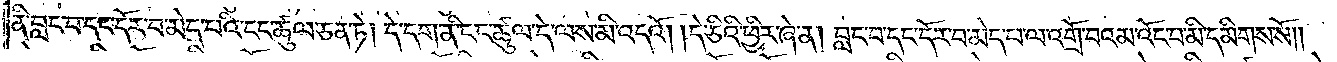ནི་བླང་བ་དང་དོར་བ་མེད་པའི་ངང་ཚུལ་ཅན་ཏེ། དེ་དག་ནི་ངང་ཚུལ་དེ་ལས་མི་འདའོ། །དེ་ཅིའི་ཕྱིར་ཞེ་ན། བླང་བ་དང་དོར་བ་མེད་པ་ལ་འགྲོ་བའམ་འོང་བ་མི་དམིགས་སོ༎
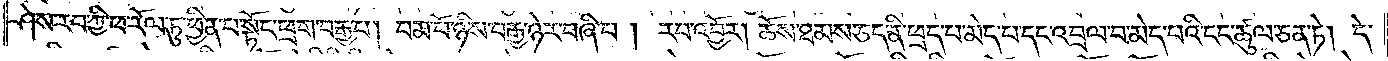ཤེས་རབ་ཀྱི་ཕ་རོལ་ཏུ་ཕྱིན་པ་སྟོང་ཕྲག་བརྒྱ་པ། །བམ་པོ་ཉིས་བརྒྱ་ཉེར་བཞི་པ། །རབ་འབྱོར། ཆོས་ཐམས་ཅད་ནི་ཕྲད་པ་མེད་པ་དང་འབྲལ་བ་མེད་པའི་ངང་ཚུལ་ཅན་ཏེ། དེ་
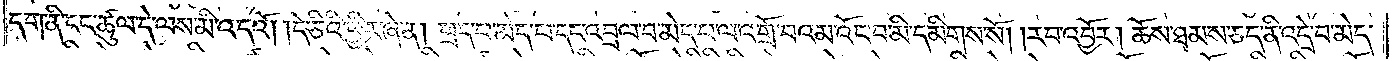དག་ནི་ངང་ཚུལ་དེ་ལས་མི་འདའོ། །དེ་ཅིའི་ཕྱིར་ཞེ་ན། ཕྲད་པ་མེད་པ་དང་འབྲལ་བ་མེད་པ་ལ་འགྲོ་བའམ་འོང་བ་མི་དམིགས་སོ། །རབ་འབྱོར། ཆོས་ཐམས་ཅད་ནི་འདྲི་བ་མེད་
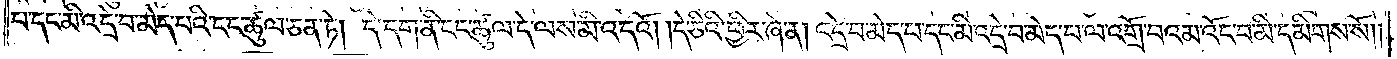པ་དང་མི་འོང་བ་མེད་པའི་ངང་ཚུལ་ཅན་ཏེ། །དེ་དག་ནི་ངང་ཚུལ་དེ་ལས་མི་འདའོ། །དེ་ཅིའི་ཕྱིར་ཞེ་ན། འདྲེ་བ་མེད་པ་དང་མི་འོང་བ་མེད་པ་ལ་འགྲོ་བའམ་འོང་བ་མི་དམིགས་སོ། །
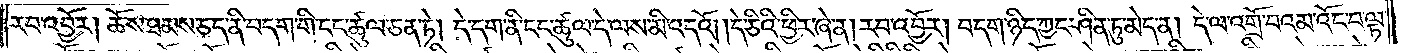རབ་འབྱོར། ཆོས་ཐམས་ཅད་ནི་བདག་གི་ངང་ཚུལ་ཅན་ཏེ། །དེ་དག་ནི་ངང་ཚུལ་དེ་ལས་མི་འདའོ། །དེ་ཅིའི་ཕྱིར་ཞེ་ན། རབ་འབྱོར། བདག་ཉིད་ཀྱང་ཤིན་ཏུ་མེད་ན། དེ་ལ་འགྲོ་བའམ་འོང་བ་ལྟ་
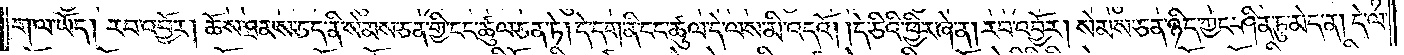ག་ལ་ཡོད། རབ་འབྱོར། ཆོས་ཐམས་ཅད་ནི་སེམས་ཅན་གྱི་ངང་ཚུལ་ཅན་ཏེ། དེ་དག་ནི་ངང་ཚུལ་དེ་ལས་མི་འདའོ། །དེ་ཅིའི་ཕྱིར་ཞེ་ན། རབ་འབྱོར། སེམས་ཅན་ཉིད་ཀྱང་ཤིན་ཏུ་མེད་ན། དེ་ལ་
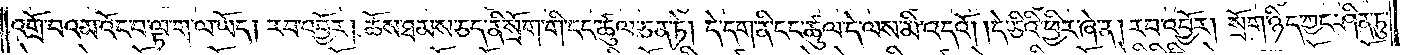འགྲོ་བ་འམ་འོང་བ་ལྟ་ག་ལ་ཡོད། རབ་འབྱོར། ཆོས་ཐམས་ཅད་ནི་སྲོག་གི་ངང་ཚུལ་ཅན་ཏེ། དེ་དག་ནི་ངང་ཚུལ་དེ་ལས་མི་འདའོ། །དེ་ཅིའི་ཕྱིར་ཞེ་ན། རབ་འབྱོར། སྲོག་ཉིད་ཀྱང་ཤིན་ཏུ་
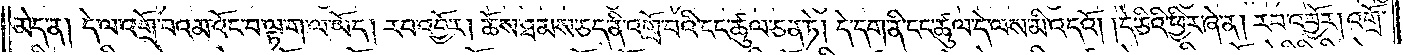མེད་ན། དེ་ལ་འགྲོ་བའམ་འོང་བ་ལྟ་ག་ལ་ཡོད། རབ་འབྱོར། ཆོས་ཐམས་ཅད་ནི་འགྲོ་བའི་ངང་ཚུལ་ཅན་ཏེ། དེ་དག་ནི་ངང་ཚུལ་དེ་ལས་མི་འདའོ། །དེ་ཅིའི་ཕྱིར་ཞེ་ན། རབ་འབྱོར། འགྲོ་
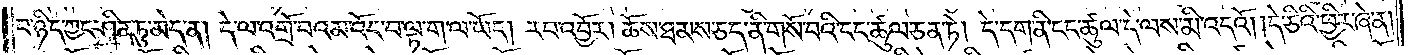བ་ཉིད་ཀྱང་ཤིན་ཏུ་མེད་ན། དེ་ལ་འགྲོ་བའམ་འོང་བ་ལྟ་ག་ལ་ཡོད། རབ་འབྱོར། ཆོས་ཐམས་ཅད་ནི་གསོ་བའི་ངང་ཚུལ་ཅན་ཏེ། དེ་དག་ནི་ངང་ཚུལ་དེ་ལས་མི་འདའོ། །དེ་ཅིའི་ཕྱིར་ཞེ་ན།
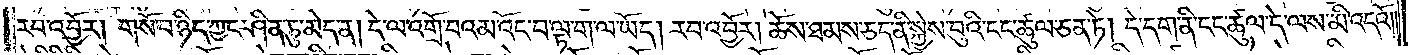རབ་འབྱོར། གསོ་བ་ཉིད་ཀྱང་ཤིན་ཏུ་མེད་ན། དེ་ལ་འགྲོ་བ་འམ་འོང་བ་ལྟ་ག་ལ་ཡོད། རབ་འབྱོར། ཆོས་ཐམས་ཅད་ནི་སྐྱེས་བུའི་ངང་ཚུལ་ཅན་ཏེ། དེ་དག་ནི་ངང་ཚུལ་དེ་ལས་མི་འདའོ། །
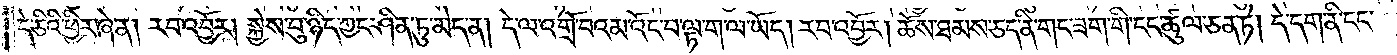དེ་ཅིའི་ཕྱིར་ཞེ་ན། རབ་འབྱོར། སྐྱེས་བུ་ཉིད་ཀྱང་ཤིན་ཏུ་མེད་ན། དེ་ལ་འགྲོ་བའམ་འོང་བ་ལྟ་ག་ལ་ཡོད། རབ་འབྱོར། ཆོས་ཐམས་ཅད་ནི་གང་ཟག་གི་ངང་ཚུལ་ཅན་ཏེ། དེ་དག་ནི་ངང་
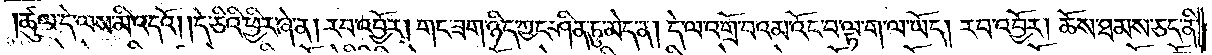ཚུལ་དེ་ལས་མི་འདའོ། །དེ་ཅིའི་ཕྱིར་ཞེ་ན། རབ་འབྱོར། གང་ཟག་ཉིད་ཀྱང་ཤིན་ཏུ་མེད་ན། དེ་ལ་འགྲོ་བའམ་འོང་བ་ལྟ་ག་ལ་ཡོད། རབ་འབྱོར། ཆོས་ཐམས་ཅད་ནི་
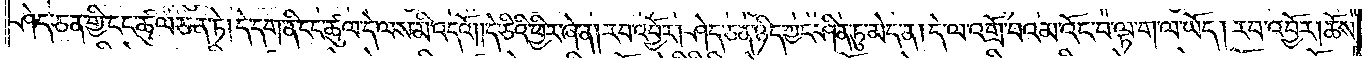ཤེད་ཅན་གྱི་ངང་ཚུལ་ཅན་ཏེ། དེ་དག་ནི་ངང་ཚུལ་དེ་ལས་མི་འདའོ། །དེ་ཅིའི་ཕྱིར་ཞེ་ན། རབ་འབྱོར། ཤེད་ཅན་ཉིད་ཀྱང་ཤིན་ཏུ་མེད་ན། དེ་ལ་འགྲོ་བའམ་འོང་བ་ལྟ་ག་ལ་ཡོད། རབ་འབྱོར། ཆོས་
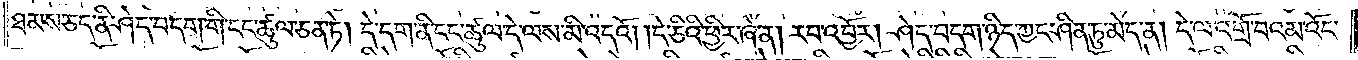ཐམས་ཅད་ནི་ཤེད་བདག་གི་ངང་ཚུལ་ཅན་ཏེ། དེ་དག་ནི་ངང་ཚུལ་དེ་ལས་མི་འདའོ། །དེ་ཅིའི་ཕྱིར་ཞེ་ན། རབ་འབྱོར། ཤེད་བདག་ཉིད་ཀྱང་ཤིན་ཏུ་མེད་ན། དེ་ལ་འགྲོ་བའམ་འོང་
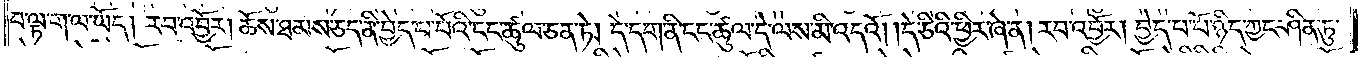བ་ལྟ་ག་ལ་ཡོད། རབ་འབྱོར། ཆོས་ཐམས་ཅད་ནི་བྱེད་པ་པོའི་ངང་ཚུལ་ཅན་ཏེ། དེ་དག་ནི་ངང་ཚུལ་དེ་ལས་མི་འདའོ། །དེ་ཅིའི་ཕྱིར་ཞེ་ན། རབ་འབྱོར། བྱེད་པ་པོ་ཉིད་ཀྱང་ཤིན་ཏུ་
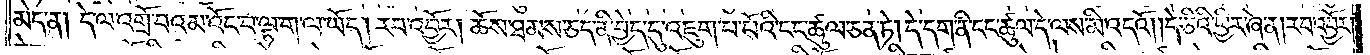མེད་ན། དེ་ལ་འགྲོ་བའམ་འོང་བ་ལྟ་ག་ལ་ཡོད། རབ་འབྱོར། ཆོས་ཐམས་ཅད་ནི་བྱེད་དུ་འཇུག་པ་པོའི་ངང་ཚུལ་ཅན་ཏེ། དེ་དག་ནི་ངང་ཚུལ་དེ་ལས་མི་འདའོ། །དེ་ཅིའི་ཕྱིར་ཞེ་ན། རབ་འབྱོར།
